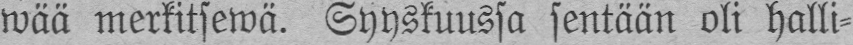wää merkitsewä. Syyskuussa sentään oli halli-
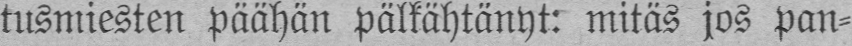tusmiesten päähän pälkähtänyt: mitäs jos pan-
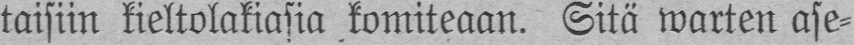taisiin kieltolakiasia komiteaan. Sitä warten ase-
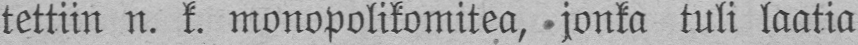tettiin n. k. monopolikomitea, jonka tuli laatia
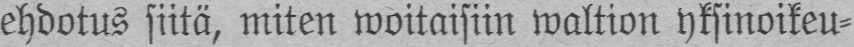ehdotus siitä, miten woitaisiin waltion yksinoikeu-
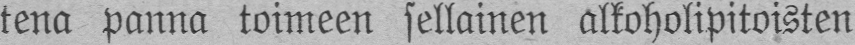tena panna toimeen sellainen alkoholipitoisten
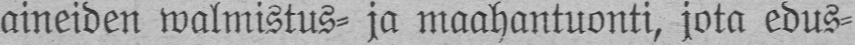aineiden walmistus- ja maahantuonti, jota edus-
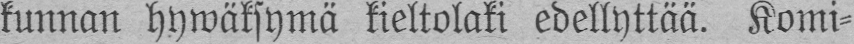kunnan hywäksymä kieltolaki edellyttää. Komi-
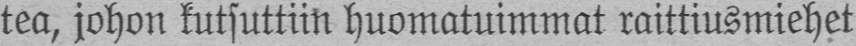tea, johon kutsuttiin huomatuimmat raittiusmiehet
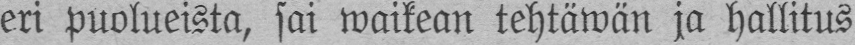eri puolueista, sai waikean tehtäwän ja hallitus
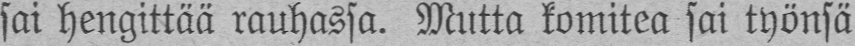sai hengittää rauhassa. Mutta komitea sai työnsä
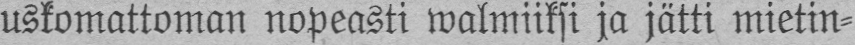uskomattoman nopeasti walmiiksi ja jätti mietin-
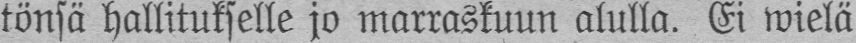tönsä hallitukselle jo marraskuun alulla. Ei wielä
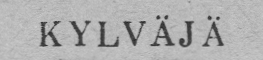KYLVÄJÄ
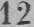N:o 12
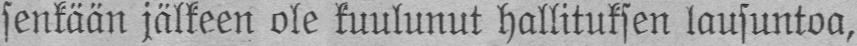senkään jälkeen ole kuulunut hallituksen lausuntoa,
